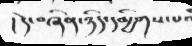། དེ་བཞིན་ཉིད་དམྱིགས་པའ
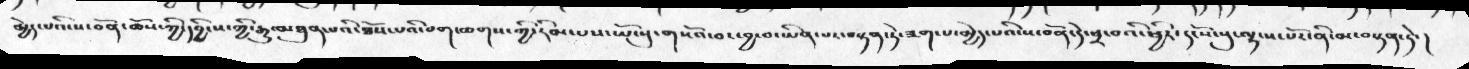མྱེད་པའི་ས་བོན་ཆོས་ཀྱི་དབྱིངས་ཀྱི་རྒྱུ་མཐུན་པའི་ཐོས་པའི་བག་ཆགས་ཀྱི་རིམ་པས་ཡོངསུ་གསོའ་བར་བྱ་བ་ཡིན་པར་བསྟན་ཏེ་ཟག་པ་མྱེད་པའི་ས་བོན་དེ་ཕྲ་བའི་ཕྱིར་དངོས་སུ་ལྟ་ས་པོར་ནི་མ་བསྟན་ཏེ་།
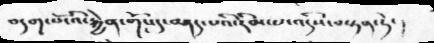བདག་པོ་འི་རྐྱེན་གོང་དུ་བཤད་པའི་རིམ་པ་འདིས་བསྟན་ཏེ་།
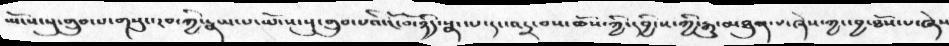ཡོངས་སུ་གྲུབ་པ་གསུང་རབ་ཀྱི་རྣམ་པ་ཡོངས་སུ་གྲུབ་པའི་ངོ་བོ་ཉིད་སྣང་པ་དང་འདྲ་བས་ཆོས་ཀྱི་དབྱིངས་ཀྱི་རྒྱུ་མཐུན་པ་ཞེས་ཀྱང་བྱ་ཐོས་པ་ཞེས
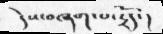དེས་བཞག་པ་དྲོད་།
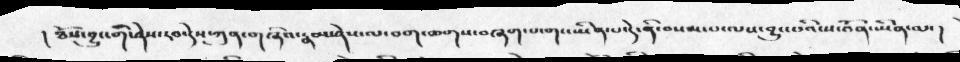། ཐོས་བྱུང་གི་ཤེས་རབ་དེས་ཀུན་གཞིའ་རྣམ་ཤེས་ལ་བག་ཆགས་བཞག་པ་གང་ཡིན་པ་དེ་ནི་བསམ་པ་ལས་བྱུང་པའི་ས་བོན་ཡིན་ལ་།
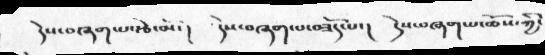དེས་བཞག་པ་རྩེ་མོ་།  དེས་བཞག་པ་བཟོད་པ་།  དེས་བཞག་པ་ཆོས་ཀྱི་
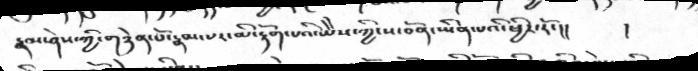རྣམ་ཤེས་ཀྱི་གཉེན་པོ་རྣམ་པར་མི་རྟོག་པའི་ཡཻས་ཀྱི་ས་བོན་ཡིན་པའི་ཕྱིར་རོ་།།  །
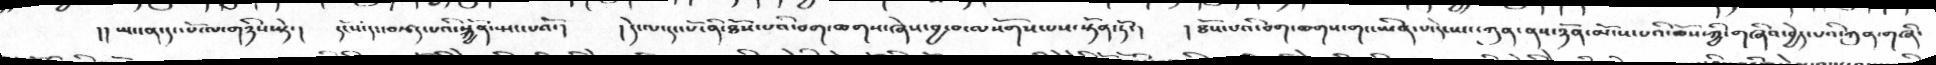།།  ཡང་ན་དང་པོ་ལ་གཉིས་སྟེ་།  དངོས་དང་བརྩད་པའི་སྐྱོན་སྤང་པའོ་།  །དེ་ལ་དང་པོ་ནི་ཐོས་པའི་བག་ཆགས་ཞེས་བྱ་བ་ལསོགས་པས་སྟོན་ཏོ་།  །ཐོས་པའི་བག་ཆགས་གང་ཡིན་པ་དེ་ཡང་ཀུན་ནས་ཉོན་མོངས་པའི་ཆོས་ཀྱི་གཞིའ་བྱེད་པའི་ཀུན་གཞི་
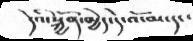དེའི་སྐྱོན་མྱེད་དེ་འོ་མ་དང་
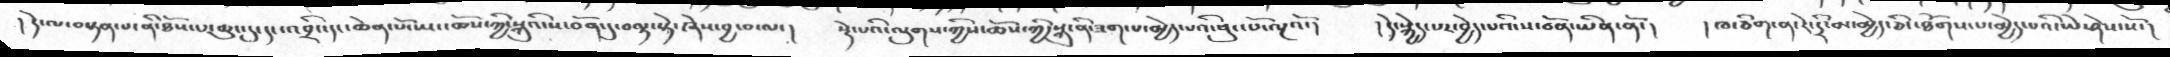། དེ་ལ་བསྟན་པ་ནི་ཐོས་པ་ཆུང་ངུ་དང་འབྲིང་དང་ཆེན་པོ་ཡང་ཆོས་ཀྱི་སྐུའི་ས་བོན་དུ་བལྟ་སྟེ་ཞེས་བྱ་བ་ལ་།   སྡེ་པའི་ལུགས་ཀྱིས་ཆོས་ཀྱི་སྐུ་ནི་ཟག་པ་མྱེད་པའི་ཕུང་པོ་ལྔའོ་།     །དེ་སྐྱེད་པར་བྱེད་པའི་ས་བོན་ཡིན་ནོ་།    ། ཁ་ཅིག་ན་རེ་དྲི་མ་མྱེད་ཅིང་ཐོགས་པ་མྱེད་པའི་ཡེ་ཤེས་སོ་།
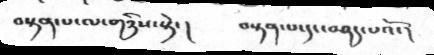བསྟན་པ་ལ་གཉིས་སྟེ་ །         བསྟན་པ་དང་བཤད་པའོ་།
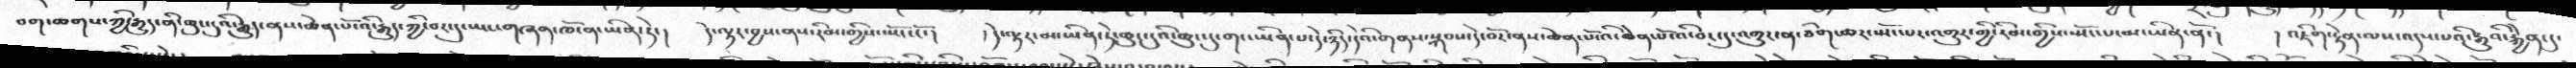བག་ཆགས་ཀྱི་རྒྱུད་ནི་ཆུང་ངུའི་རྒྱུད་ནས་ཆེན་པོ་འི་རྒྱུད་ཀྱི་བར་དུ་ཡང་གཞན་ཁོ་ན་ཡིན་ཏེ་།    དེ་ལྟར་བྱས་ནས་རིམ་གྱིས་ཡོང་ངོ་།     ། དེ་ལྟར་མ་ཡིན་ཏེ་ཆུང་ངུའི་ཆུང་ངུ་གང་ཡིན་པ་དེ་ཉིད་དེའི་གནས་སྐབས་དེ་བོར་ནས་ཆེན་པོ་འི་ཆེན་པོ་འི་བར་དུ་འགྱུར་ན་ཅིག་ཆར་སྤོང་པར་འགྱུར་གྱི་རིམ་གྱིས་སྤོང་པ་མ་ཡིན་ནོ་།    ། འཇིག་རྟེན་ལས་་འདས་པའི་རྒྱུའི་རྐྱེན་དུ་
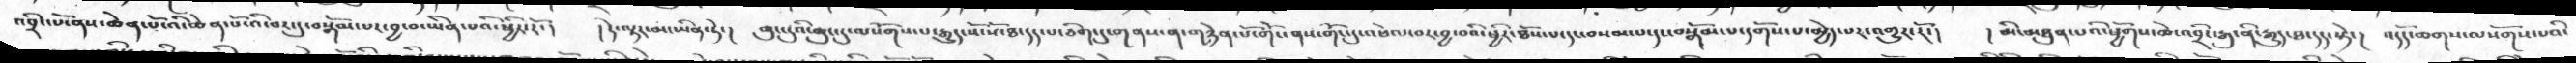འབྲིང་པོ་ནས་ཆེན་པོ་འི་ཆེན་པོ་འི་བར་དུ་བསྒོམ་པར་བྱ་བ་ཡིན་པའི་ཕྱིར་རོ་།    ། དེ་ལྟར་མ་ཡིན་ཏེ་།   ཆུང་ངུའི་ཆུང་ངུ་ལསོགས་པ་རྒྱུད་སོ་སོ་ཐ་དད་པ་ཅིག་དུ་གནས་ན་གཉེན་པོ་གོང་ནས་གོང་དུ་འཕེལ་བར་བྱ་བའི་ཕྱིར་ཐོས་པ་དང་བསམ་པ་དང་བསྒོམ་པ་དགོས་པ་མྱེད་པར་འགྱུར་རོ་།    །མི་མཐུན་པའི་ཕྱོགས་ཆེ་འབྲིང་རྒུ་ནི་རྒྱུད་ཐ་དད་སྟེ་།   འདོད་ཆགས་ལསོགས་པའི་
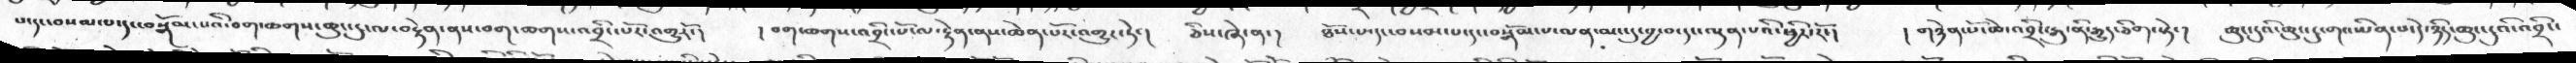པ་དང་བསམ་པ་དང་བསྒོམ་པའི་བག་ཆགས་ཆུང་ངུ་ལ་བརྟེན་ནས་བག་ཆགས་འབྲིང་པོར་འགྱུརོ་།  །བག་ཆགས་འབྲིང་པོ་ལ་བརྟེན་ནས་ཆེན་པོར་འགྱུར་ཏེ་།  ཅིས་ཞེ་ན་།  ཐོས་པ་དང་བསམ་པ་དང་བསྒོམ་པ་ལན་མང་དུ་བྱ་བ་དང་ལྡན་པའི་ཕྱིར་རོ་།  །གཉེན་པོ་ཆེ་འབྲིང་རྒུ་ནི་རྒྱུད་ཅིག་སྟེ་།  ཆུང་ངུའི་ཆུང་ངུ་གང་ཡིན་པ་དེ་ཉིད་ཆུང་ངུའི་འབྲིང་
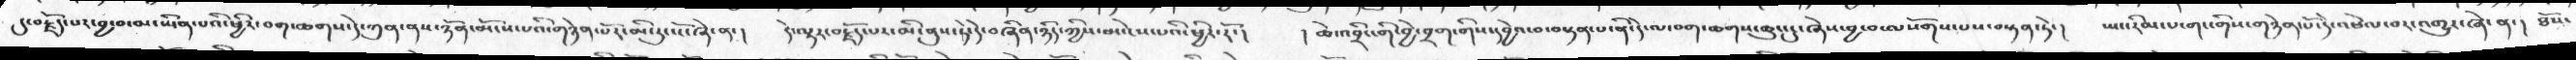དུ་བརྗོད་པར་བྱ་བ་མ་ཡིན་པའི་ཕྱིར་བག་ཆགས་དེ་ཀུན་ནས་ཉོན་མོངས་པའི་གཉེན་པོར་མི་རུང་ངོ་ཞེ་ན་།  དེ་ལྟར་བརྗོད་པར་མི་ནུས་ཏེ་དེ་བཞིན་ཉིད་ཀྱིས་མ་ངེས་པའི་ཕྱིར་རོ་།   ། ཆེ་འབྲིང་གི་བྱེ་བྲག་གིས་དབྱེའ་བ་བསྟན་པ་ནི་དེ་ལ་བག་ཆགས་ཆུང་ངུ་ཞེས་བྱ་བ་ལསོགས་པས་བསྟན་ཏེ་།  ཡང་རིམ་པ་གང་གིས་གཉེན་པོ་དེ་འཕེལ་བར་འགྱུར་ཞེ་ན་།  ཐོས་
